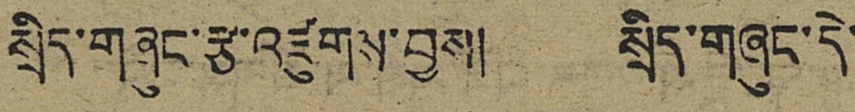སྲིད་གཞུང་རྩ་འཛུགས་བྱས། སྲིད་གཞུང་དེ་
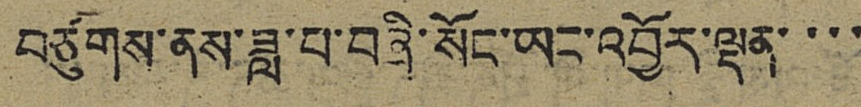བཙུགས་ནས་ཟླ་བ་བཞི་སོང་ཡང་འབྱོར་ལྡན་་་་
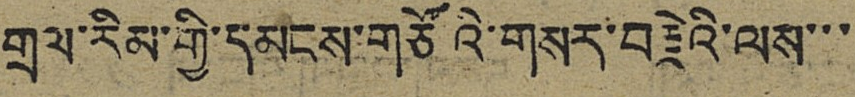གྲལ་རིམ་གྱི་དམངས་གཙོའི་གསར་བརྗེའི་ལས་་་
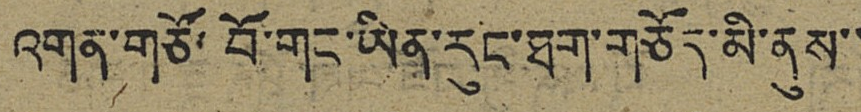འགན་གཙོ་བོ་གང་ཡིན་རུང་ཐག་གཅོད་མི་ནུས་་
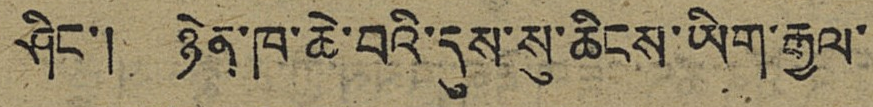ཤིང་། ཉེན་ཁ་ཆེ་བའི་དུས་སུ་ཆིངས་ཡིག་རྒྱལ་
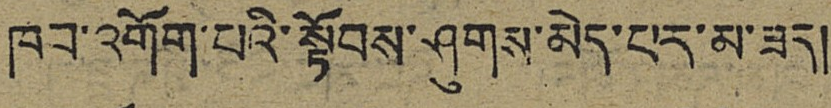ཁབ་འགོག་པའི་སྟོབས་ཤུགས་མེད་པར་མ་ཟད།
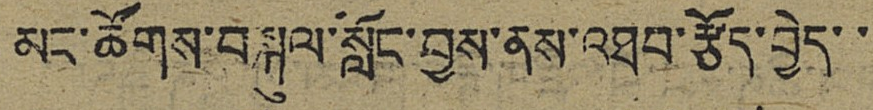མང་ཚོགས་བསྐུལ་སློང་བྱས་ནས་འཐབ་རྩོད་བྱེད་་
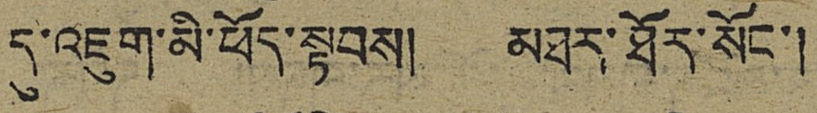དུ་འཇུག་མི་ཕོད་སྟབས། མཐར་ཐོར་སོང་།
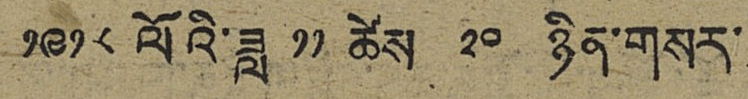༡༩༡༨ ལོའི་ཟླ ༡༡ ཚེས ༡༠ ཉིན་གསར་
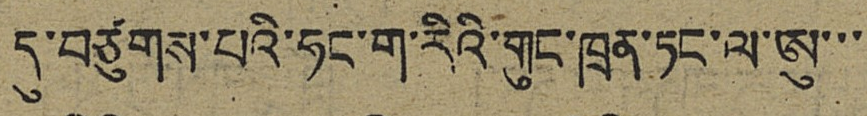དུ་བཙུགས་པའི་ཧང་ག་རིའི་གུང་ཁྲན་ཏང་ལ་ཨུ་་་
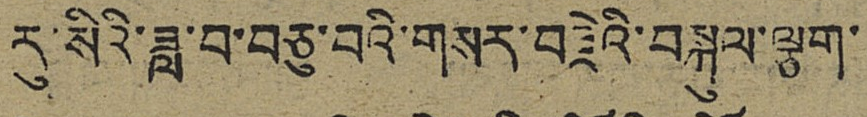རུ་སིའི་ཟླ་བ་བཅུ་བའི་གསར་བརྗེའི་བསྐུལ་ལྕག་
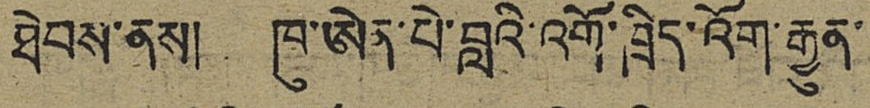ཐེབས་ནས། ཁུ་ཨེན་པེ་བླའི་འགོ་ཁྲིད་འོག་རྒྱུན་
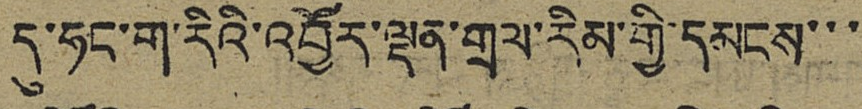དུ་ཧང་ག་རིའི་འབྱོར་ལྡན་གྲལ་རིམ་གྱི་དམངས་་་
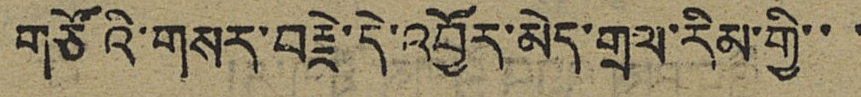གཙོའི་གསར་བརྗེ་དེ་འབྱོར་མེད་གྲལ་རིམ་གྱི་་་
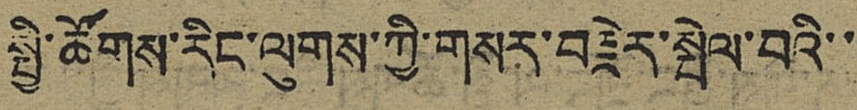སྤྱི་ཚོགས་རིང་ལུགས་ཀྱི་གསར་བརྗེར་སྤེལ་བའི་་
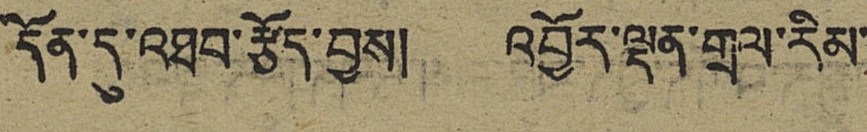དོན་དུ་འཐབ་རྩོད་བྱས། འབྱོར་ལྡན་གྲལ་རིམ་
